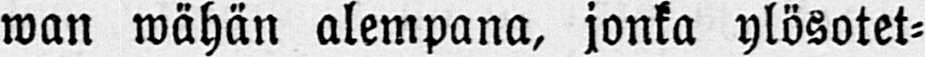wan wähän alempana, jonka ylösotet-
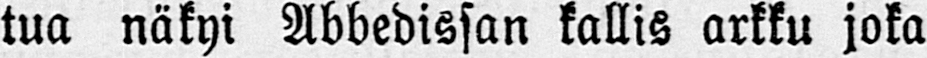tua näkyi Abbedissan kallis arkku joka
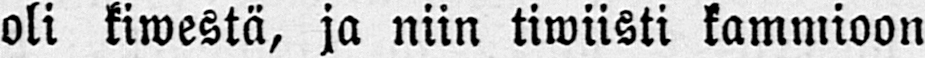oli kiwestä, ja niin tiwiisti kammioon
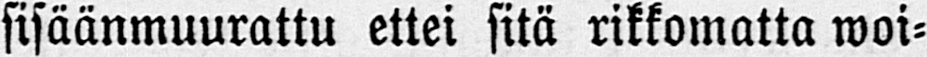sisäänmuurattu ettei sitä rikkomatta woi-
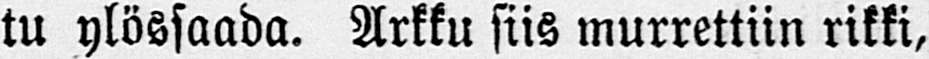tu ylössaada. Arkku siis murrettiin rikki,
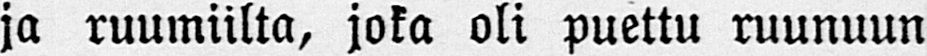ja ruumiilta, joka oli puettu ruunuun
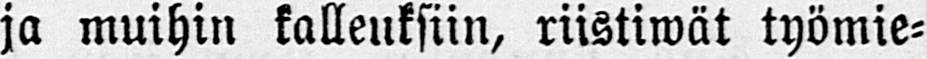ja muihin kalleuksiin, riistiwät työmie-
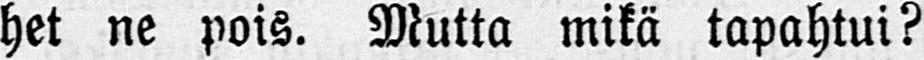het ne pois. Mutta mikä tapahtui?
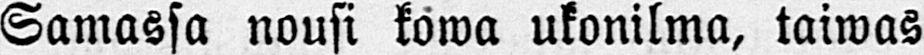Samassa nousi kowa ukonilma, taiwas
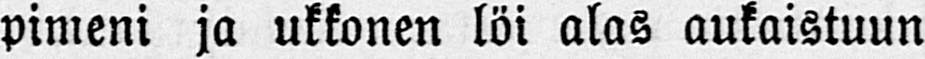pimeni ja ukkonen löi alas aukaistuun
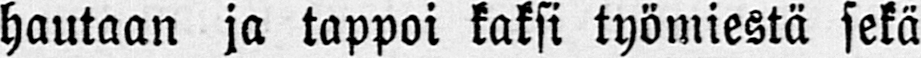hautaan ja tappoi kaksi työmiestä sekä
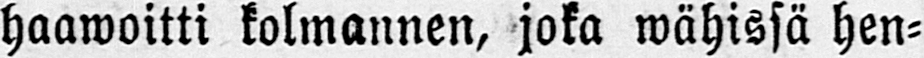haawoitti kolmannen, joka wähissä hen-
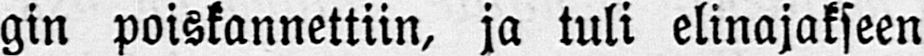gin poiskannettiin, ja tuli elinajakseen
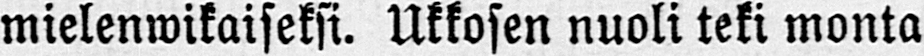mielenwikaiseksi. Ukkosen nuoli teki monta
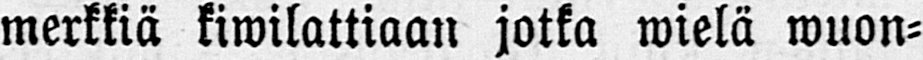merkkiä kiwilattiaan jotka wielä wuon-
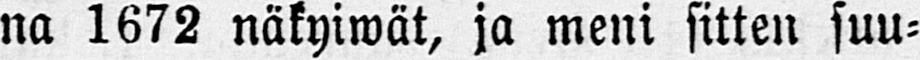na 1672 näkyiwät, ja meni sitten suu-
